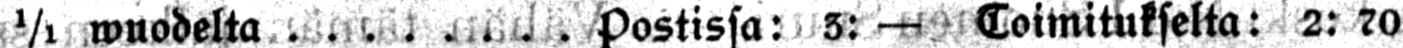1/1 wuodelta Postissa: 3: — Toimitukselta: 2: 70
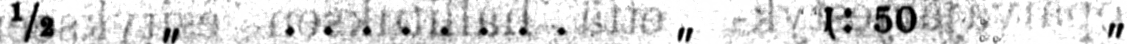½ „ „ 1: 50 „ 1: 35
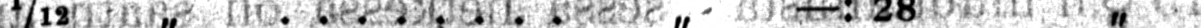1/12 „ „ —: 28 „ —: 25
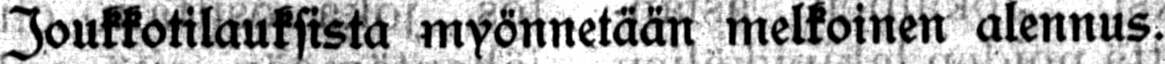Joukkotilausista myönnetään melkoinen alennus.
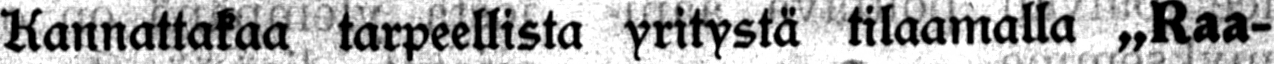Kannattakaa tarpeellista yritystä tilaamalla „Raa-
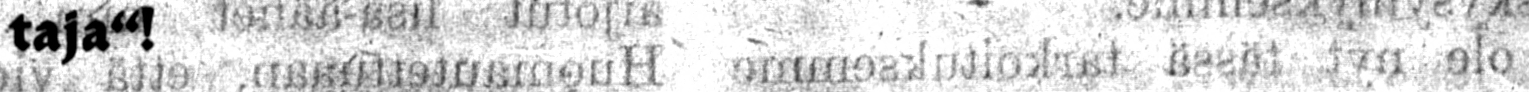taja"!
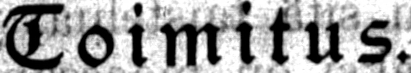Toimitus.
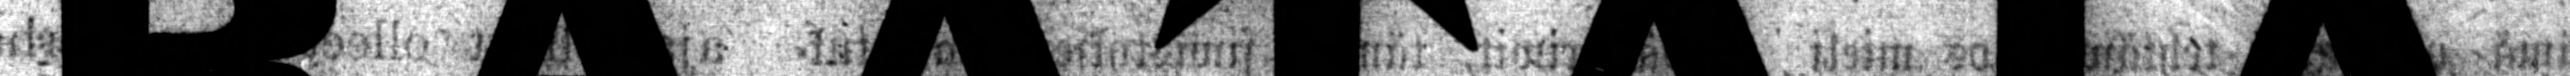RAATAJA
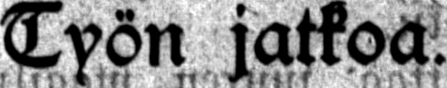Työn jatkoa.
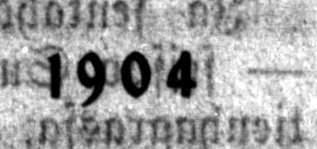1904
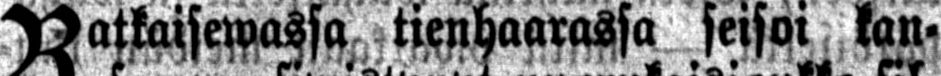Ratkaisewassa tienhaarassa seisoi kan-
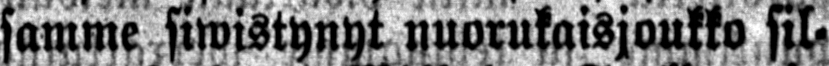samme siwistynyt nuorukaisjoukko sil-
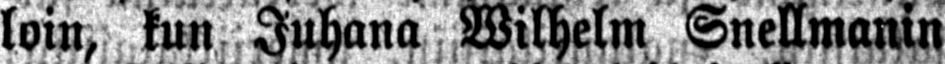loin, kun Juhana Wilhelm Snellmanin
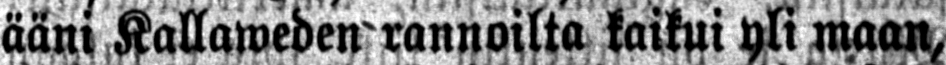ääni Kallaweden rannoilta kaikui yli maan,
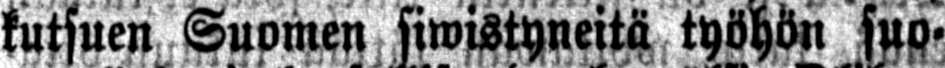kutsuen Suomen siwistyneitä työhön suo-
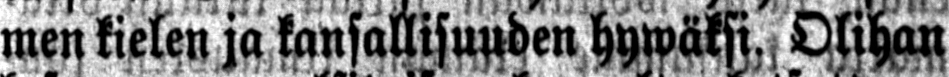men kielen ja kansallisuuden hywäksi. Olihan
